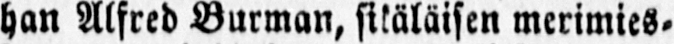han Alfred Burman, sikäläisen merimies-
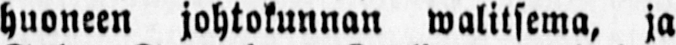huoneen johtokunnan walitsema, ja
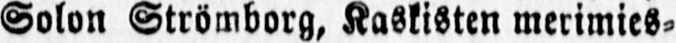Solon Strömborg, Kaskisten merimies-
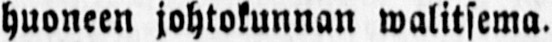huoneen johtokunnan walitsema.
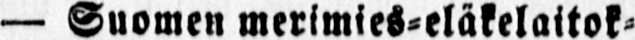— Suomen merimies-eläkelaitok-
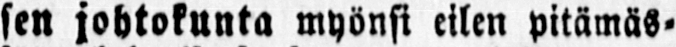sen johtokunta myönsi eilen pitämäs-
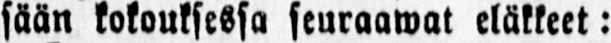sään kokouksessa seuraawat eläkkeet:
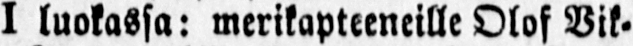I luokassa: merikapteeneille Olof Vik-
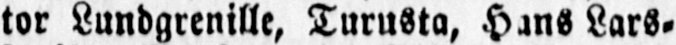tor Lundgrenille, Turusta, Hans Lars-
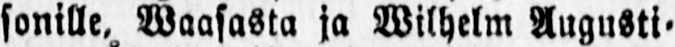sonille. Waasasta ja Wilhelm Augusti-
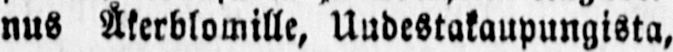nus Åkerblomille, Uudestakaupungista,
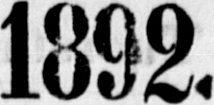1892.
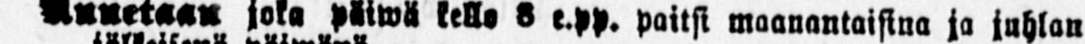Annetaan joka päiwä kell, 5 e.pp. paitsi maanantaisina ja juhlan
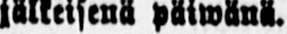jälkeisenä päiwänä.
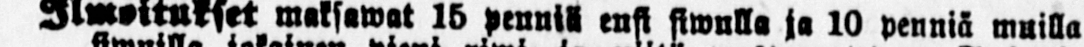Ilmoitukset maksawat 15 penniä ensi siwulla ja 10 penniä muilla
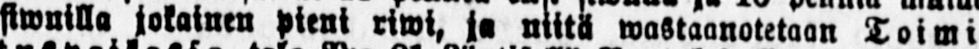siwuilla jokainen pieni riwi, ja niitä wastaanotetaan Toimi
